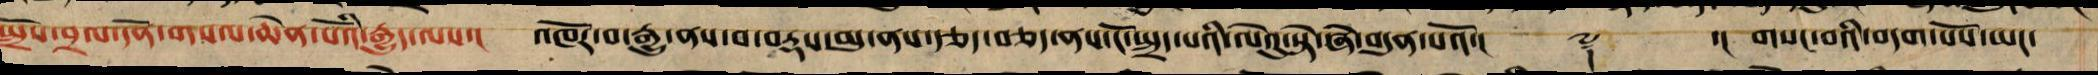སྤྲོས་བྲལ་དོན་གསལ་ཆེན་པོའི་རྒྱུད་ལས་། འཁོར་བ་རྒྱུ་ནས་བ་བརྡས་མུ་ནསརྩད་བཅད་ནས་ངོ་སྤྲད་པའི་ལེའུ་སྟེ་ཞེ་བདུན་པའོ་།། ༈ ་།། གསང་བའི་བདག་པོས་ཡང་
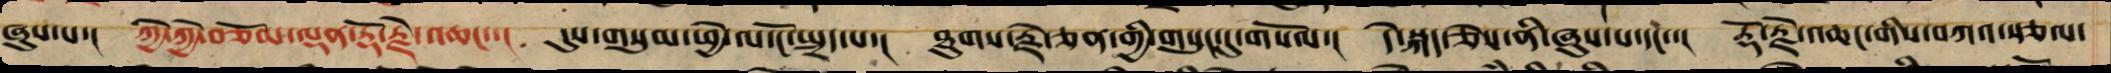ཞུས་པ་། ཀྱེ་ཀྱེ་བཅོམ་ལྡན་རྡོ་རྗེ་འཆང་་། དུས་གསུམ་ཕྱེ་ལ་ངོ་སྤྲད་པ་། ཐུགས་རྗེ་ཅན་གྱིས་གསུང་དུ་གསོལ་། དེ་སྐད་ཅེས་ནི་ཞུས་པ་དང་་། རྡོ་རྗེ་འཆང་གིས་བཀའ་སྩལ་
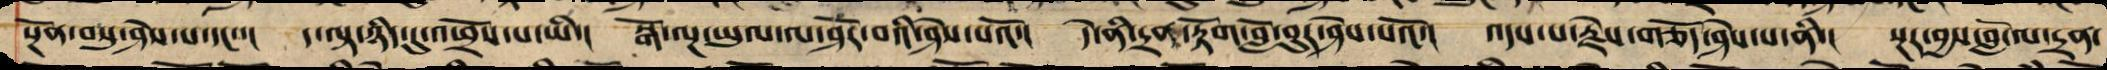སྔོན་བསུ་ཤེས་པ་དང་་། ད་ལྟ་ཉིད་དུ་འཕྲོས་པ་ཡི་། སྒོ་ལྔ་ཡུལ་ལ་ཤོར་བའི་ཤེས་པའོ་། དེ་ནི་དྲན་རྟོག་བློ་བུར་ཤེས་པའོ་། འདས་པ་རྗེས་གཅོད་ཤེས་པ་ནི་། སྔར་བྱས་བློ་ལ་དྲན་
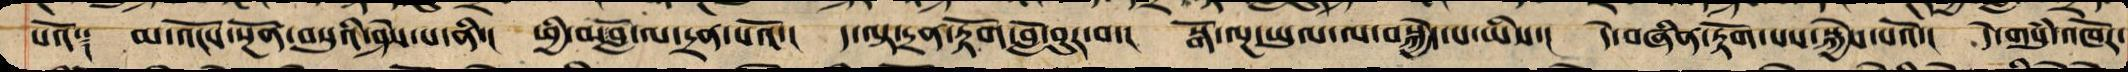པའོ༑ མ་འོངས་སྔོན་བསུའི་ཤེས་པ་ནི་། ཕྱི་མ་བློ་ལ་དྲན་པའོ་། ད་ལྟ་དྲན་རྟོག་བློ་བུར་བ་། སྒོ་ལྔ་ཡུལ་ལ་བསྐྱེད་པ་ཡིས་། དེ་བཞིན་རྟོགས་པས་སྐྱེས་པའོ་། དེ་གསུཾ་འཁོར་
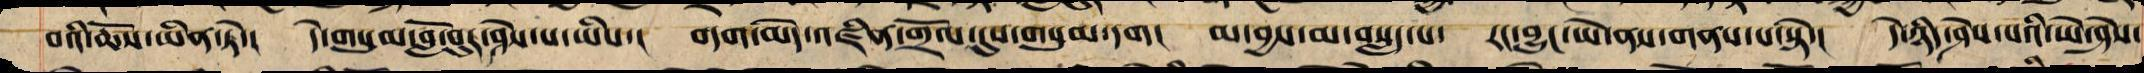བའི་ཆོས་ཡིན་ཏེ་། དེ་གསུམ་བློ་བུར་ཤེས་པ་ཡིས་། བདག་མེད་འཛིན་གྲོལ་དུས་གསུམ་དག། མ་བྱས་མ་བསླད་པ་ རང་བྱུང་ཡེ་ནས་གནས་པ་སྟེ་། དེ་ཉིད་ཤེས་པའི་ཡེ་ཤེས་
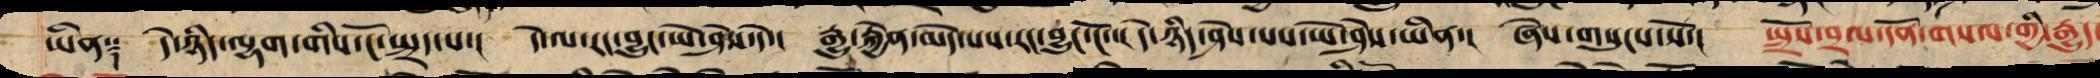ཡིན༑ དེ་ཉིད་ལྷག་གིས་ངོ་སྤྲད་པ་། དེ་ལ་རང་བྱུང་ཡེ་ཤེས་ཏེ་། རྒྱུ་རྐྱེན་མེད་པས་རང་བྱུང་ངོ་་། དེ་ཉིད་ཤེས་པས་ཡེ་ཤེས་ཡིན་། ཞེས་གསུངས་སོ་། སྤྲོས་བྲལ་དོན་གསལ་གྱི་རྒྱུད་
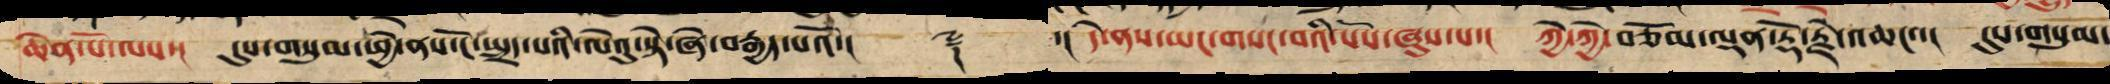ཆེན་པོ་ལས་། དུས་གསུམ་ཕྱེ་ནས་ངོ་སྤྲད་པའི་ལེའུ་སྟེ་ཞེ་བརྒྱད་པའོ་།། ༈ ་། དེ་ནས་ཡང་གསང་བའི་བདག་པོས་ཞུས་པ་། ཀྱེ་ཀྱེ་བཅོམ་ལྡན་རྡོ་རྗེ་འཆང་་། དུས་གསུམ་
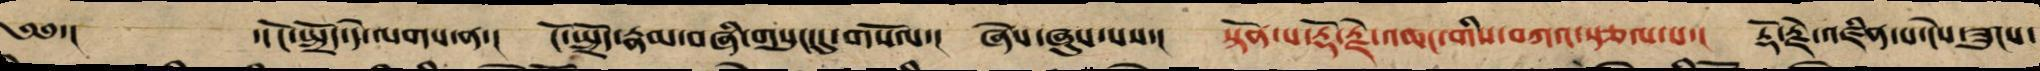༄༅་། ་། ངོ་སྤྲོད་དེ་ལགས་ན་། ངོ་སྤྲོད་རྣམ་བཞི་གསུང་དུ་གསོལ་། ཞེས་ཞུས་པས་། སྟོན་པ་རྡོ་རྗེ་འཆང་གིས་བཀའ་སྩལ་པ་། རྡོ་རྗེ་འཛིན་པ་ངེས་ཟུངས་
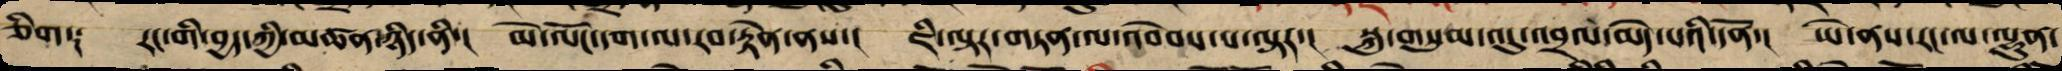ཅིག༑ རང་གི་བྱད་ཀྱི་མཚན་ཉིད་ནི་། མེ་ལོང་དག་ལ་རབ་བརྟེན་ནས་། ཇི་ལྟར་གཏན་ལ་འབེབས་པ་ལྟར་། སྐུ་གསུམ་འདུ་འབྲལ་མེད་པའི་དོན་། ཡེ་ནས་རང་ལ་ལྷུན་
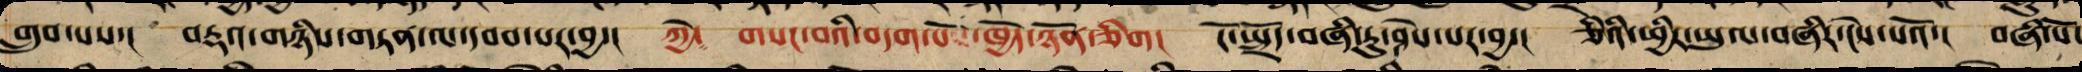གྲུབ་པས་། བརྡའ་གཉིས་གཏན་ལ་དབབ་པར་བྱ་། ཀྱེ༴ གསང་བའི་བདག་པོས་ཁྱོད་ཉོན་ཅིག། ངོ་སྤྲོད་བཞི་རུ་ཤེས་པར་བྱ་། ཅིའི་ཕྱིར་ཡུལ་བཞིར་ངེས་པའོ་། བཞི་པོ་
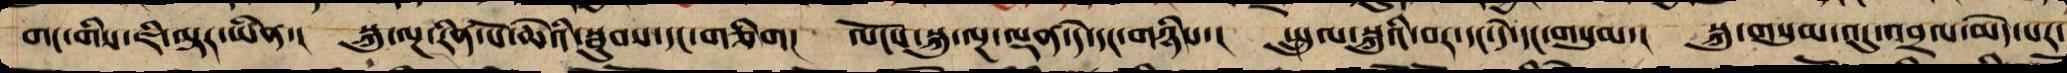གང་གིས་ཇི་ལྟར་ཡིན་། སྐུ་ལྔ་རིན་པོ་ཆེའི་སྦུབས་དང་གཅིག། ལོངས་སྐུ་ལྔ་ལྡན་དེ་དང་གཉིས་། སྤྲུལ་སྐུའི་བར་དང་དེ་དང་གསུམ་། སྐུ་གསུམ་འདུ་འབྲལ་མེད་པར་
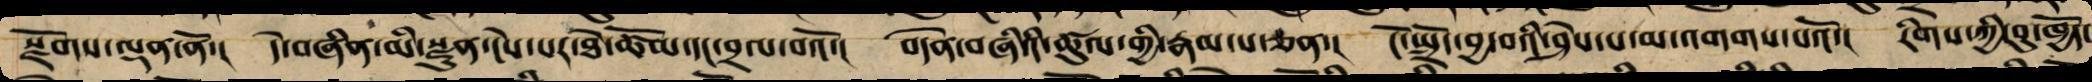སྫོགས་ལྡན་ནོ་། དེ་བཞི་མི་སྫུན་ངེས་པས་ཐེ་ཚོམ་དང་བྲལ་བའོ་། བདེན་བཞིའི་ཚུལ་གྱི་རྣམ་པ་ཅན་། ངོ་སྤྲོད་བྱ་བའི་ཤེས་པ་མ་འགགས་པའོ་། རིགས་ཀྱི་བུ་ཁྱོད་
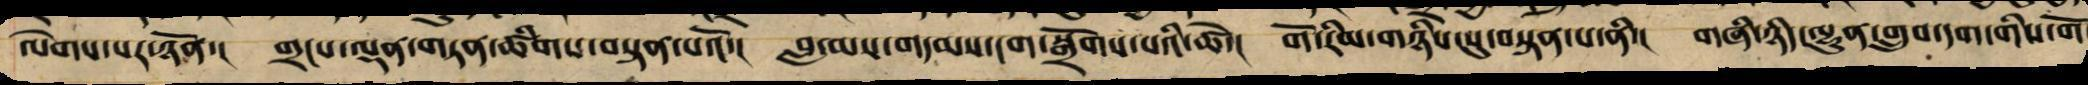ལེགས་པར་ཉོན་། གྲངས་ལྡན་གཏན་ཚིགས་བསྟན་པའོ་། བླ་མས་གདམས་ངག་སྒྲོགས་པའི་ཚེ་། གོ་རིམ་གཉིས་སུ་བསྟན་པ་ནི་། གཞི་ཉིད་ལྷུན་གྲུབ་དག་གིས་གོ
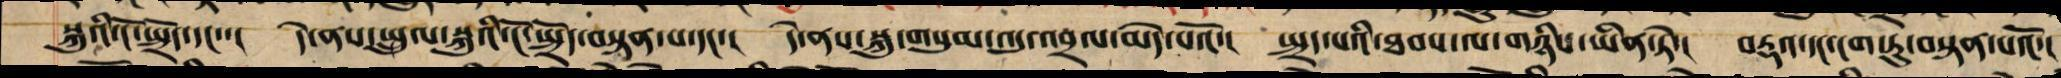སྐུའི་ངོ་སྤྲོད་དང་་། དེ་ནས་སྤྲུལ་སྐུའི་ངོ་སྤྲོད་བསྟན་པ་དང་། དེ་ནས་སྐུ་གསུམ་འདུ་འབྲལ་མེད་པའོ་། སྤྲད་པའི་ཐབས་ལ་གཉིས་ཡིན་ཏེ་། བརྡ་དང་ངག་ཏུ་བསྟན་པའོ་།
